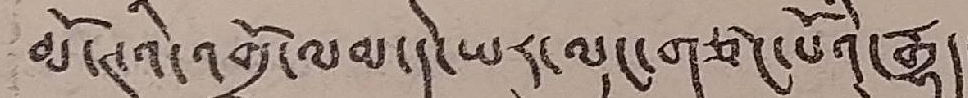མོ་ཊའི་འགྲོ་ལམ་དེ་ཡར་ལུང་གཙང་པོའི་རྒྱུད་
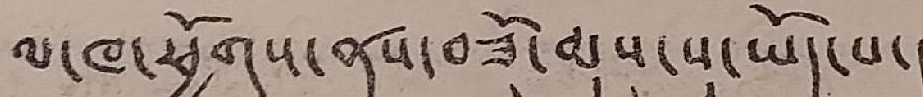ལ་ཁ་ཕྱོགས་ནས་བཟོ་མུས་སུ་ཡོད་པ་།
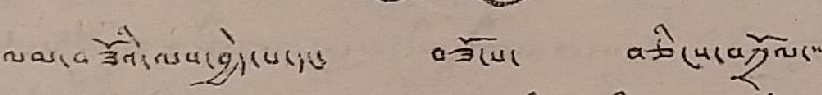ལམ་བཟོའི་ལས་བྱེད་པ་དང་ བཟོ་པ་ བཅིངས་བཀྲོལ་་་་
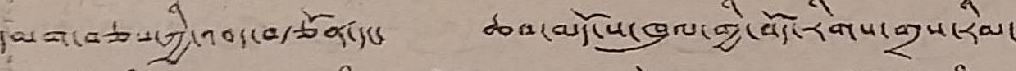དམག་བཅས་ཀྱི་འབད་བརྩོན་དང་ ཆབ་མདོ་ས་ཁུལ་གྱི་བོད་རིགས་གྲས་རིམ་
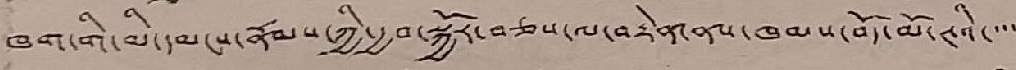ཁག་གི་མི་དམངས་རྣམས་ཀྱི་རྒྱབ་སྐྱོར་བཅས་ལ་བརྟེན་ནས་ཁམས་བོད་མོ་ཊའི་་་་
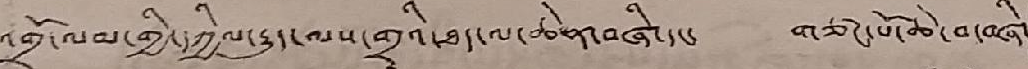འགྲོ་ལམ་གྱི་དཀྱིལ་རྒྱུད་ལས་གྲྭའི་ཐད་ལ་ཆེན་བཞི་དང་ གཙང་པོ་ཆེ་བ་བཞི་
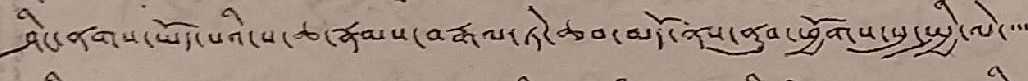ཤིང་ནགས་ཡོད་པའི་ས་ཆ་རྣམས་བརྒལ་ཏེ་ཆབ་མདོ་ནས་ནུབ་ཕྱོགས་སུ་སྤྱི་ལེ་་་་་
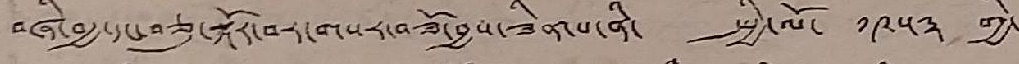བཞི་བརྒྱ་དང་བཅུ་སྐོར་བར་གསར་བཟོ་བྱས་ཟིན་པ་ནི་ སྤྱི་ལོ་ ༡༩༥༣ གྱི་
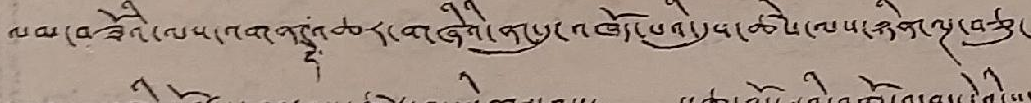ལམ་བཟོའི་ལས་འགན་ དེ་ འཆར་གཞིའི་ནང་དུ་འཁོད་པའི་དུས་ཚེས་ལས་ཉིན་ལྔ་བཅུ་
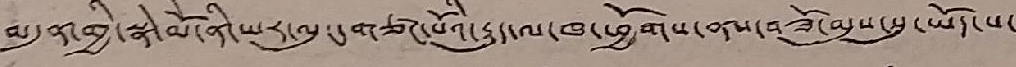མདུན་གྱི་སྣེ་མོ་ནི་ཡར་ལུང་གཙང་པོའི་རྒྱུད་ལ་ཁ་ཕྱོགས་ནས་བཟོ་མུས་སུ་ཡོད་པ་
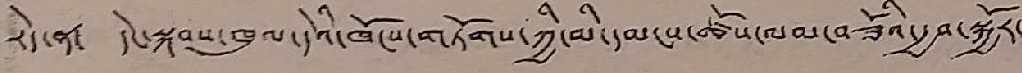རེད་ན་ དེངས་སྐབས་ཁུལ་དེའི་ཁོངས་གཏོགས་ཀྱི་མི་དམངས་ཚོས་ལམ་བཟོའི་རྒྱབ་སྐྱོར་
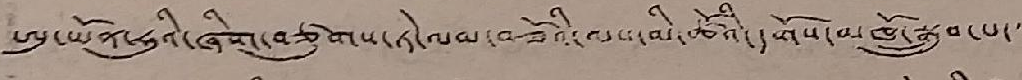ཨུ་ཡོན་ཧུའི་ཞིབ་བཙུགས་ཏེ་ལམ་བཟོའི་ལས་མི་ཚོའི་དགོས་མཁོ་སྒྲུབ་པ་་་
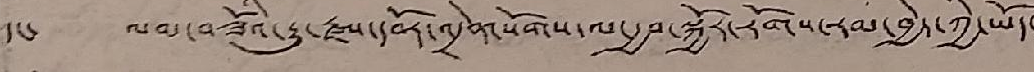དང་ ལམ་བཟོའི་རྒྱུ་རྫས་དབོར་འདྲེན་སོགས་ལ་རྒྱབ་སྐྱོར་རོགས་རམ་བྱེད་ཀྱི་ཡོད་
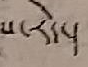པ་རེད་།
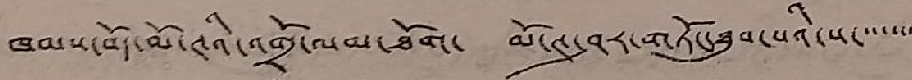ཁམས་བོད་མོ་ཊའི་འགྲོ་ལམ་ཐོག་ མོ་ཊ་ཤར་གཏོང་ཐུབ་པའི་ས་་་་་་་
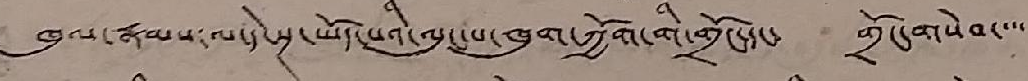ཁུལ་རྣམས་ལ་དེ་སྔ་ཡོད་པའི་ལུང་པ་ཁུག་ཀྱོག་གི་གྲོང་དང་ གྲོང་གསེབ་་་་
